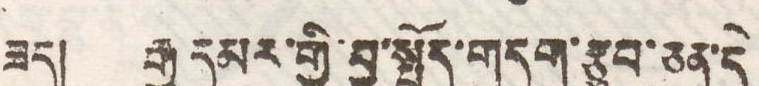ཟད། རྒྱ་དམར་གྱི་བྱ་སྤྱོད་གདུག་རྩུབ་ཅན་དེ
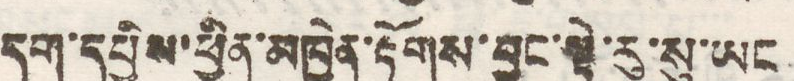དག་དཔྱིས་ཕྱིན་མཁྱེན་རྟོགས་བྱུང་སྟེ་རུ་སུ་ཡང
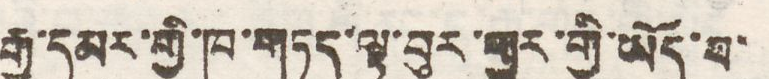རྒྱ་དམར་གྱི་ཁ་གཏད་ལྟ་བུར་གྱུར་གྱི་ཡོད་པ་
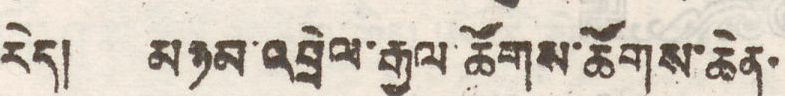རེད། མཉམ་འབྲེལ་རྒྱལ་ཚོགས་ཚོགས་ཆེན་
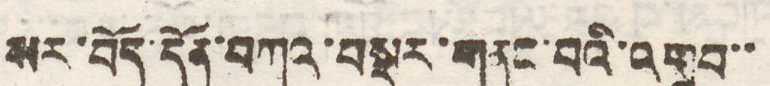སར་བོད་དོན་བཀའ་བསྡུར་གནང་བའི་འགྲུབ་་
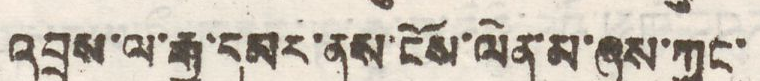འབྲས་ལ་རྒྱ་དམར་ནས་ངོས་ལེན་མ་ཞུས་ཀྱང་
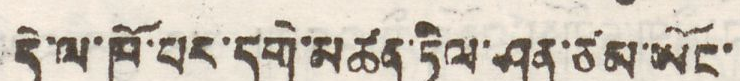དེ་ལ་ཁོ་པར་དགེ་མཚན་ཏིལ་ཤུན་ཙམ་ཡོང་
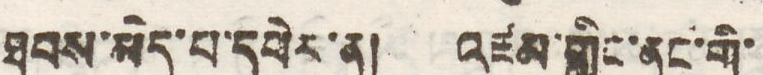ཐབས་མེད་པ་དཔེར་ན། འཛམ་གླིང་ནང་གི་
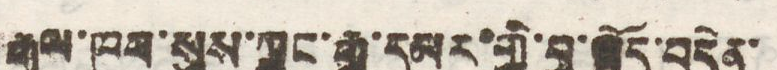རྒྱལ་ཁབ་སུས་ཀྱང་རྒྱ་དམར་གྱི་བྱ་སྤྱོད་བདེན་
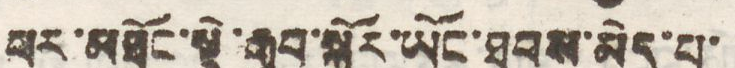པར་མཐོང་སྟེ་རྒྱབ་སྐྱོར་ཡོང་ཐབས་མེད་པ་
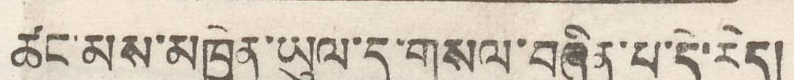ཚང་མས་མཁྱེན་ཡུལ་དུ་གསལ་བཞིན་པ་དེ་རེད།
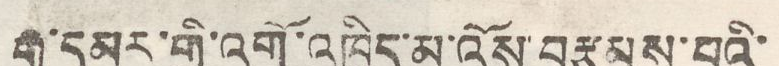རྒྱ་དམར་གྱི་འགོ་འཁྲིད་མ་འོས་བརྩམས་པའི་
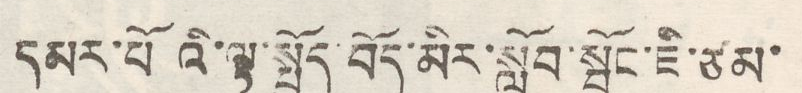དམར་པོའི་ལྟ་སྤྱོད་བོད་མིར་སློབ་སྦྱོང་ཇི་ཙམ་
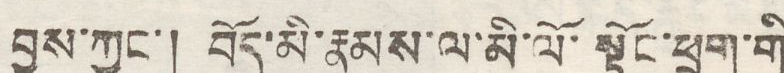བྱས་ཀྱང་། བོད་མི་རྣམས་ལ་མི་ལོ་སྟོང་ཕྲག་གི
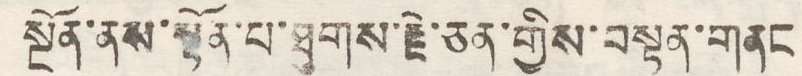སྔོན་ནས་སྟོན་པ་ཐུགས་རྗེ་ཅན་གྱིས་བསྟན་གནང
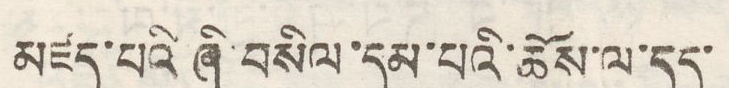མཛད་པའི ཞི་བསིལ་དམ་པའི་ཆོས་ལ་དད་
